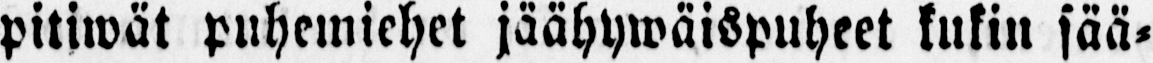pitiwät puhemiehet jäähywäispuheet kukin sää-
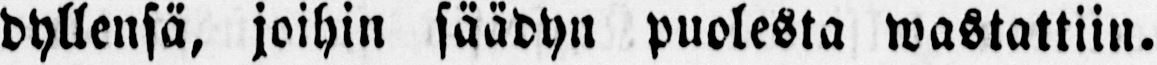dyllensä, joihin säädyn puolesta wastattiin.
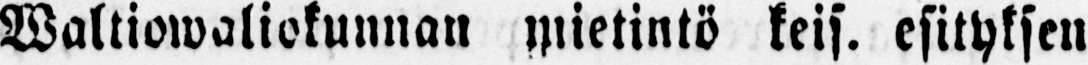Waltiowaliokunnan mietintö keis. esityksen
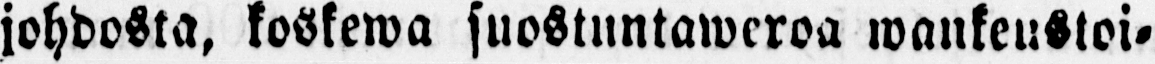johdosta, koskewa suostuntaweroa wankeustoi-
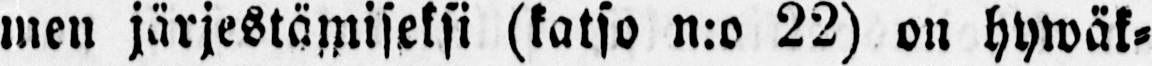men järjestämiseksi (katso n:o 22) on hywäk-
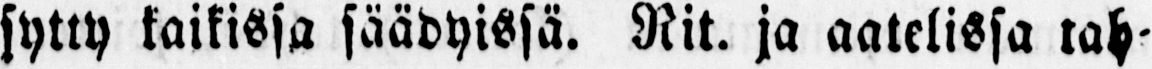sytty kaikissa säädyissä. Rit. ja aatelissa tah-
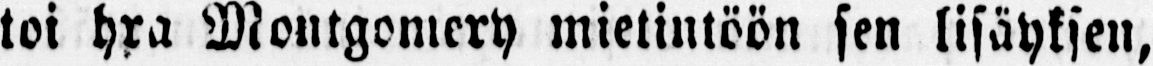toi hra Montgomery mietintöön sen lisäyksen,
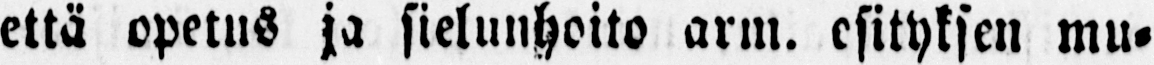että opetus ja sielunhoito arm. esityksen mu-
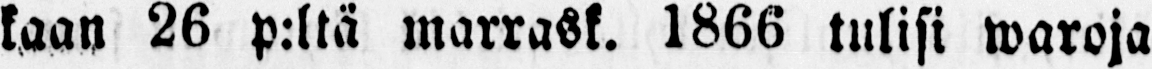kaan 26 p:ltä marrask. 1866 tulisi waroja
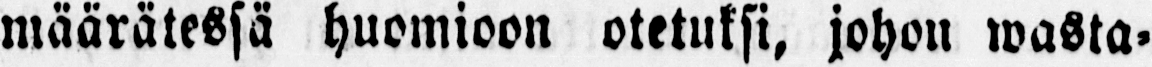määrätessä huomioon otetuksi, johon wasta-
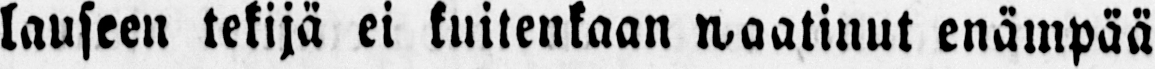lauseen tekijä ei kuitenkaan waatinut enämpää
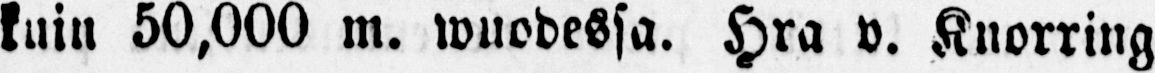kuin 50,000 m. wuodessa. Hra v. Knorring
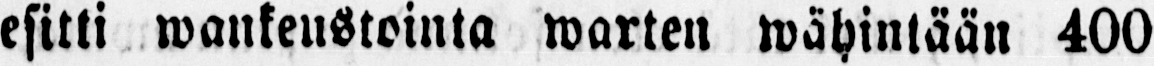esitti wankeustointa warten wähintään 400
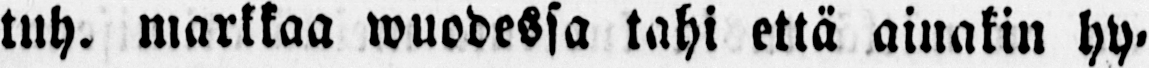tuh. markkaa wuodessa tahi että ainakin hy-
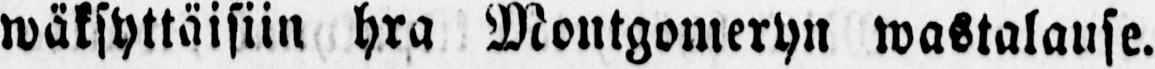wäksyttäisiin hra Montgomeryn wastalause.
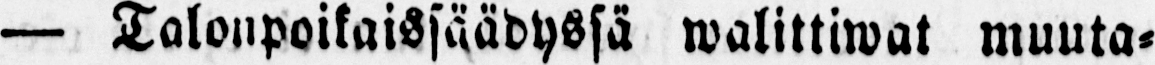— Talonpoikaissäädyssä walittiwat muuta-
